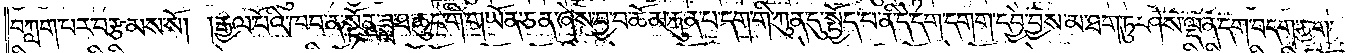བཀླག་པར་བརྩམས་སོ། །རྒྱལ་པོའི་ཁབ་ན་སྟོན་ཟླ་ཐ་ཆུང་གི་གཡོན་ཅན་ཞེས་བྱ་བ་ཆོམ་རྐུན་པ་དག་གི་ཀུན་ཏུ་སྤྱོད་པ་ནི་དེ་དག་དགག་དབྱེ་བྱས་མ་ཐག་ཏུ་ཤེས་ལྡན་དག་བདག་ཅག་
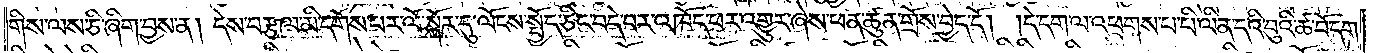གིས་ལས་ཅི་ཞིག་བྱས་ན། དེས་བརྩལ་མི་དགོས་པར་ལོ་སྐོར་དུ་ལོངས་སྤྱོད་ཅིང་བདེ་བར་འཁོད་པར་འགྱུར་ཞེས་ཕན་ཚུན་གྲོས་བྱེད་དོ། །དེ་དག་ལ་འཕགས་པ་པི་ལིན་དའི་བུའི་ཚ་བོ་དག་
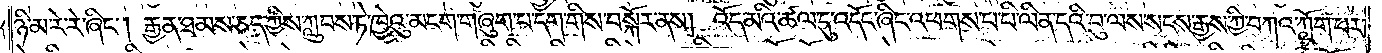ཉི་མ་རེ་རེ་ཞིང༌། རྒྱན་ཐམས་ཅད་ཀྱིས་ཀླུབས་ཏེ་ཁྱེའུ་མངག་གཞུག་པ་དག་གིས་བསྐོར་ནས། འོད་མའི་ཚལ་དུ་འདོང་ཞིང་འཕགས་པ་པི་ལིན་དའི་བུ་ལས་སངས་རྒྱས་ཀྱི་བཀའ་ཀློག་པར་
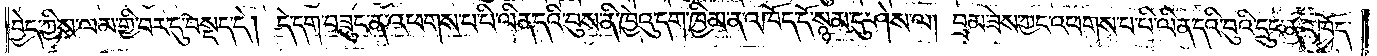བྱེད་ཀྱིས་ལམ་གྱི་བར་དུ་བསྡད་དེ། དེ་དག་བཟུང་ན་འཕགས་པ་པི་ལིན་དའི་བུས་ནི་ཁྱེའུ་དག་ཁྱིམ་ན་འཁོད་དོ་སྙམ་དུ་ཤེས་ལ། བྲམ་ཟེས་ཀྱང་འཕགས་པ་པི་ལིན་དའི་བུའི་དྲུང་ན་འཁོད་
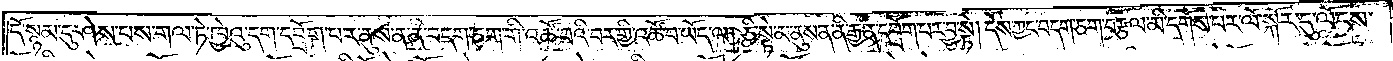དོ་སྙམ་དུ་ཤེས་པས་གལ་ཏེ་ཁྱེའུ་དག་དབྲོག་པར་ནུས་ན་ནི་བདག་ཅག་གི་འཚོ་བའི་བར་གྱི་འཚོ་བ་ཡོད་ལ། ཅི་སྟེ་མ་ནུས་ན་ནི་རྒྱན་དབྲོག་པར་བྱ་སྟེ། དེས་ཀྱང་བདག་ཅག་བརྩལ་མི་དགོས་པར་ལོ་སྐོར་དུ་ལོངས་
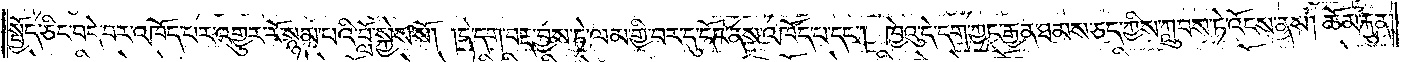སྤྱོད་ཅིང་བདེ་བར་འཁོད་པར་འགྱུར་རོ་སྙམ་པའི་བློ་སྐྱེས་སོ། །དེ་དག་བརྡ་བྱས་ཏེ་ལམ་གྱི་བར་དུ་དོང་ནས་འཁོད་པ་དང༌། ཁྱེའུ་དེ་དག་ཀྱང་རྒྱན་ཐམས་ཅད་ཀྱིས་ཀླུབས་ཏེ་འོངས་ནས། ཆོམ་རྐུན་
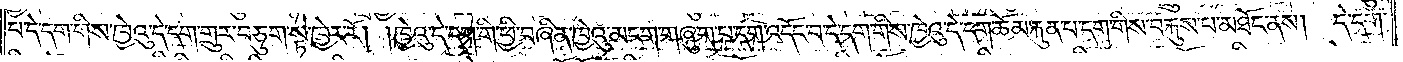པ་དེ་དག་གིས་ཁྱེའུ་དེ་དག་གྲུར་བཅུག་སྟེ་ཁྱེར་རོ། །ཁྱེའུ་དེ་དག་གི་ཕྱི་བཞིན་ཁྱེའུ་མངག་གཞུག་པ་དག་འདོང་བ་དེ་དག་གིས་ཁྱེའུ་དེ་དག་ཆོམ་རྐུན་པ་དག་གིས་བརྐུས་པ་མཐོང་ནས། དེ་དག་
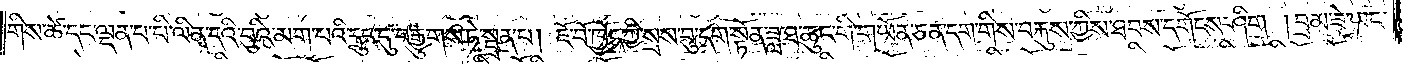གིས་ཚེ་དང་ལྡན་པ་པི་ལིན་དའི་བུའི་མག་པའི་དྲུང་དུ་བརྒྱུགས་ཏེ་སྦྲན་པ། ཇོ་བོ་ཁྱོད་ཀྱི་སྲས་བུ་དག་སྟོན་ཟླ་ཐ་ཆུང་གི་གཡོན་ཅན་དག་གིས་བརྐུས་ཀྱིས་ཐབས་དགོངས་ཤིག །བྲམ་ཟེ་ཡང་
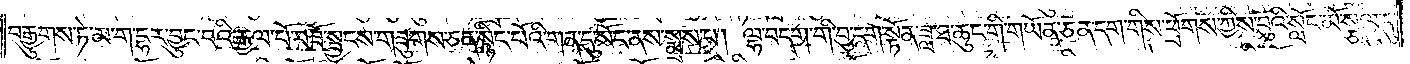བརྒྱུགས་ཏེ་མ་ག་དྷར་བྱུང་བའི་རྒྱལ་པོ་བཟོ་སྦྱངས་གཟུགས་ཅན་སྙིང་པོའི་གན་དུ་སོང་ནས་སྨྲས་པ། ལྷ་བདག་གི་བུ་དག་སྟོན་ཟླ་ཐ་ཆུང་གི་གཡོན་ཅན་དག་གིས་ཕྲོགས་ཀྱིས་བུའི་སློང་མོ་སྩལ་དུ་
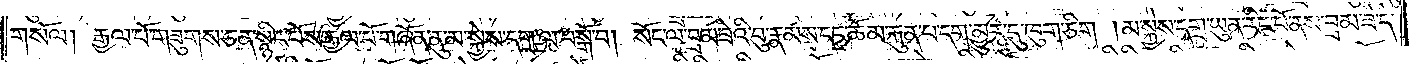གསོལ། རྒྱལ་པོ་གཟུགས་ཅན་སྙིང་པོས་རྒྱལ་པོ་གཞོན་ནུ་མ་སྐྱེས་དགྲ་ལ་བསྒོ་བ། སོང་ལ་བྲམ་ཟེའི་བུ་རྣམས་དང་ཆོམ་རྐུན་པ་དག་མྱུར་དུ་ཁུག་ཅིག །མ་སྐྱེས་དགྲ་ཡུན་རིང་པོ་ནས་བྲམ་ཟེ་དེ་
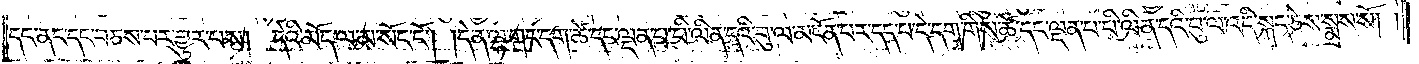དང་ནང་དང་བཅས་པར་གྱུར་པས། དེའི་མོད་ལ་མ་སོང་ངོ༌། །དེ་ན་ལྷ་གང་དག་ཚེ་དང་ལྡན་པ་པི་ལིན་དའི་བུ་ལ་མངོན་པར་དད་པ་དེ་དག་གིས་ཚེ་དང་ལྡན་པ་པི་ལིན་དའི་བུ་ལ་འདི་སྐད་ཅེས་སྨྲས་སོ། །
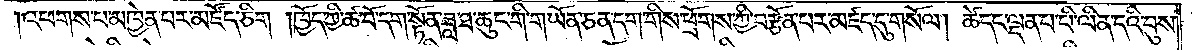འཕགས་པ་མཁྱེན་པར་མཛོད་ཅིག །ཁྱོད་ཀྱི་ཚ་བོ་དག་སྟོན་ཟླ་ཐ་ཆུང་གི་གཡོན་ཅན་དག་གིས་ཕྲོགས་ཀྱི་བརྩོན་པར་མཛད་དུ་གསོལ། ཚེ་དང་ལྡན་པ་པི་ལིན་དའི་བུས་
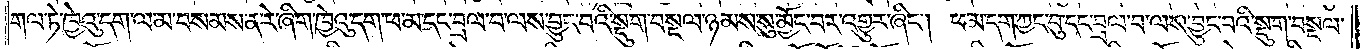གལ་ཏེ་ཁྱེའུ་དག་ལ་མ་བསམས་ན་རེ་ཞིག་ཁྱེའུ་དག་ཕ་མ་དང་བྲལ་བ་ལས་བྱུང་བའི་སྡུག་བསྔལ་ཉམས་སུ་མྱོང་བར་འགྱུར་ཞིང༌། ཕ་མ་དག་ཀྱང་བུ་དང་བྲལ་བ་ལས་བྱུང་བའི་སྡུག་བསྔལ་
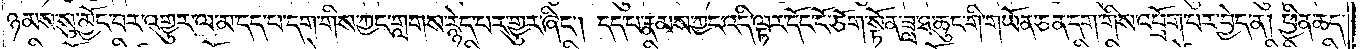ཉམས་སུ་མྱོང་བར་འགྱུར་ལ་མ་དད་པ་དག་གིས་ཀྱང་གླགས་རྙེད་པར་གྱུར་ཞིང༌། དད་པ་རྣམས་ཀྱང་འདི་ལྟར་དོང་ངོ་ཅོག་སྟོན་ཟླ་ཐ་ཆུང་གི་གཡོན་ཅན་དག་གིས་འཕྲོག་པར་བྱེད་ན། ཕྱིན་ཆད་
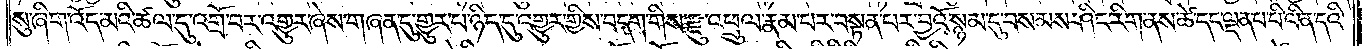སུ་ཞིག་འོད་མའི་ཚལ་དུ་འགྲོ་བར་འགྱུར་ཞེས་གཞན་དུ་གྱུར་པ་ཉིད་དུ་འགྱུར་གྱིས་བདག་གིས་རྫུ་འཕྲུལ་རྣམ་པར་བསྟན་པར་བྱའོ་སྙམ་དུ་བསམས་ཤིང་རིག་ནས་ཚེ་དང་ལྡན་པ་པི་ལིན་དའི་
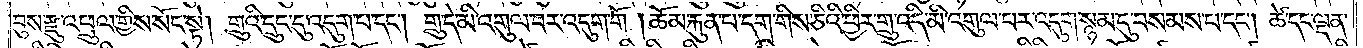བུས་རྫུ་འཕྲུལ་གྱིས་སོང་སྟེ། གྲུའི་དྲུང་དུ་འདུག་པ་དང༌། གྲུ་དེ་མི་འགུལ་བར་འདུག་གོ །ཆོམ་རྐུན་པ་དག་གིས་ཅིའི་ཕྱིར་གྲུ་འདི་མི་འགུལ་པར་འདུག་སྙམ་དུ་བསམས་པ་དང༌། ཚེ་དང་ལྡན་
